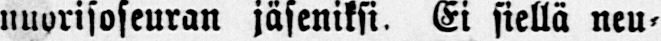nuorisoseuran jäseniksi Ei siellä neu-
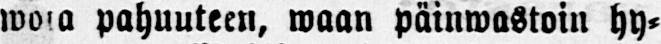wota pahuuteen, waan päinwastoin hy-
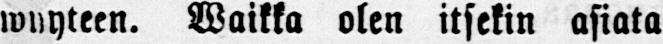wyyteen. Waikka olen itsekin asiata
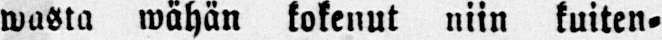wasta wähän kokenut niin kuiten-
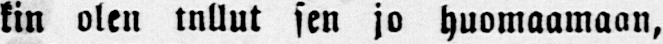kin olen tnllut sen jo huomaamaan,
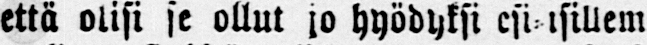että olisi se ollut jo hyödyksi esi-isillem-
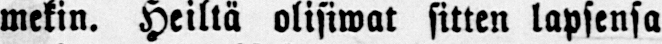mekin. Heiltä olisiwat sitten lapsensa
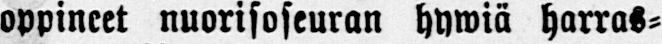oppineet nuorisoseuran hywiä harras-
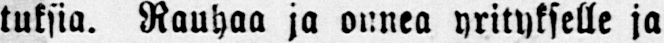tuksia. Rauhaa ja onnea yritykselle ja
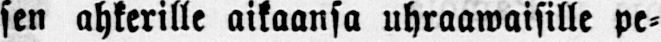sen ahkerille aikaansa uhraawaisille pe-
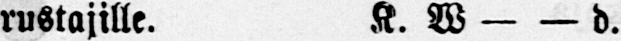rustajille. K. W — — d.
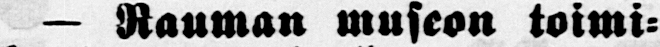— Rauman museon toimi-
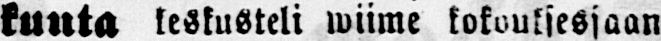kunta keskusteli wiime kokouksesjaan
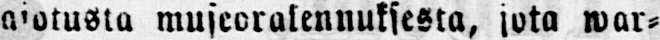aiotusta museorakennuksesta, jota war-
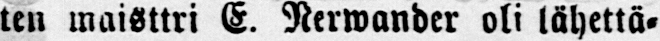ten maisttri E. Nerwander oli lähettä-
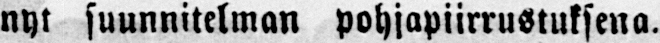nyt suunnitelman pohjapiirrustuksena.
